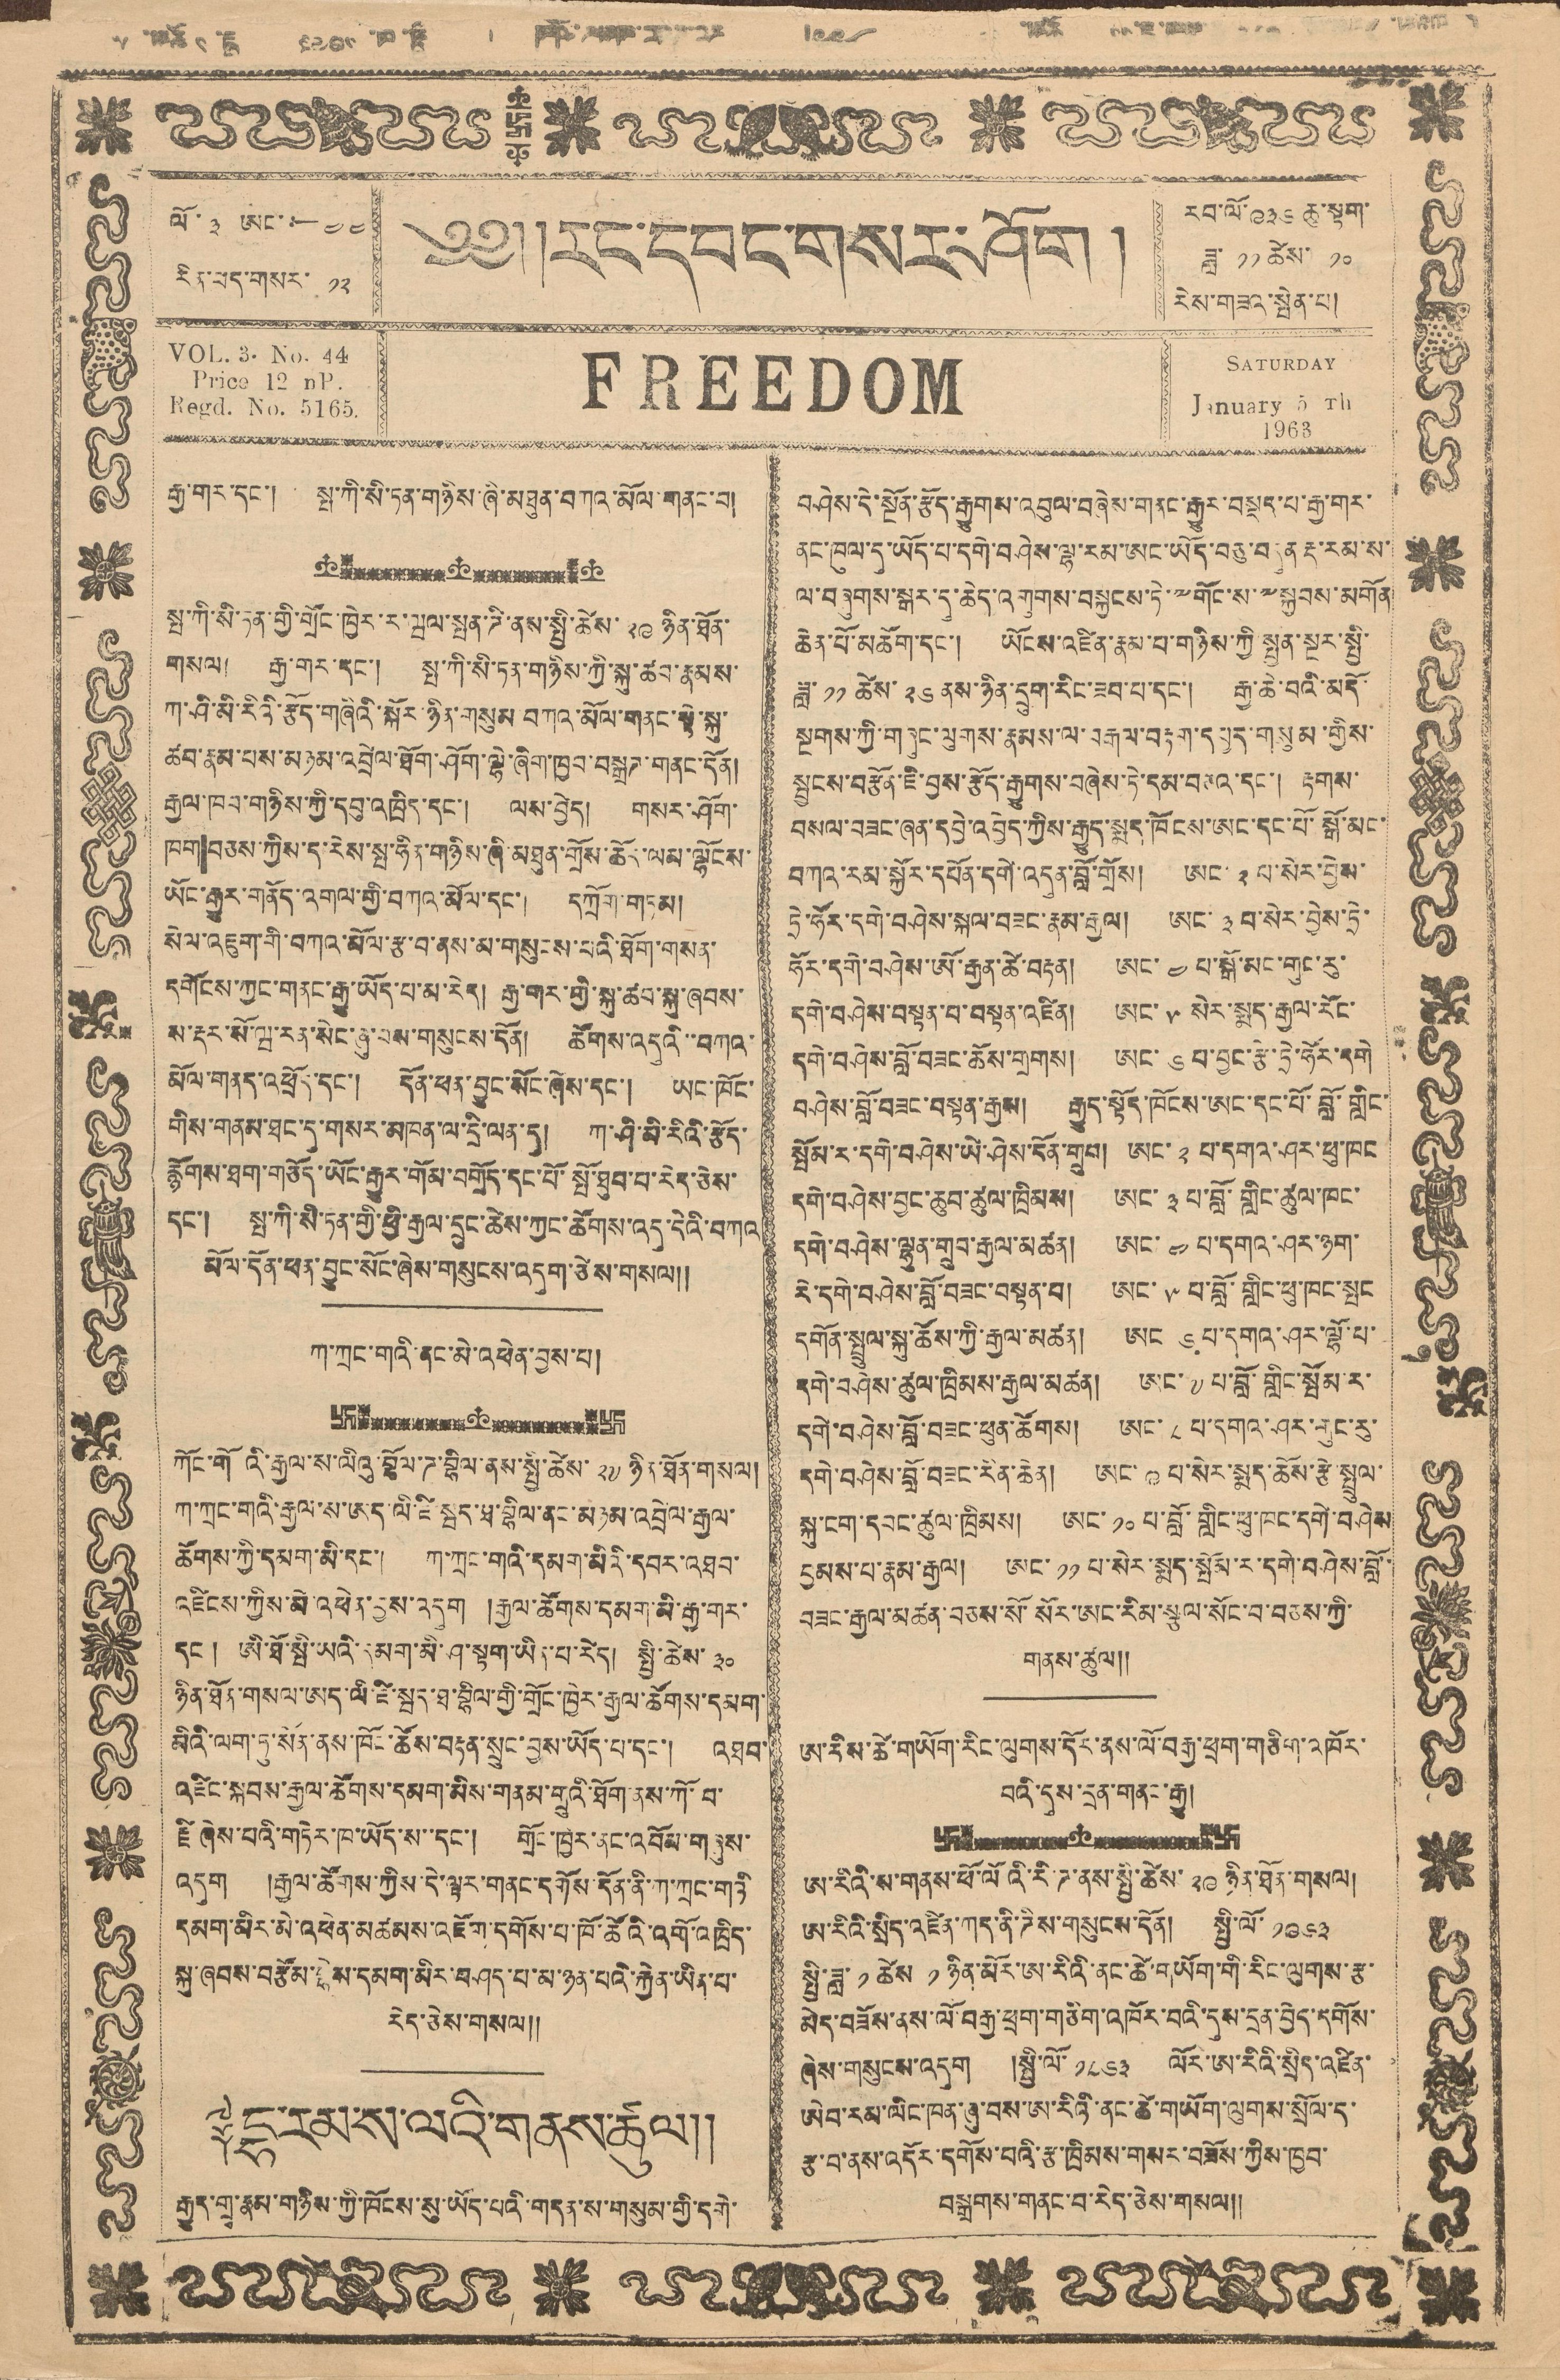རྒྱ་གར་དང་། སྤ་ཀི་སི་ཏན་གཉིས་ཞི་མཐུན་བཀའ་མོལ་གནང་བ།
སྤ་ཀི་སི་ཏན་གྱི་གྲོང་ཁྱེར་ར་ཝལ་སྤན་ཌི་ནས་སྤྱི་ཚེས་ ༢༩ ཉིན་ཐོན་
གསལ། རྒྱ་གར་དང་། སྤ་ཀི་སི་ཏན་གཉིས་ཀྱི་སྐུ་ཚབ་རྣམས་
ཀ་ཤི་མི་རིའི་རྩོད་གཞིའི་སྐོར་ཉིན་གསུམ བཀའ་མོལ་གནང་སྟེ་སྐུ་
ཚབ་རྣམ་པས་མཉམ་འབྲེལ་ཐོག་ཤོག་ལྷེ་ཞིག་ཁྱབ་བསྒྲཊ་གནང་དོན།
རྒྱལ་ཁབ་གཉིས་ཀྱི་དབུ་འཁྲིད་དང་། ལས་བྱེད། གསར་ཤོག་
ཁག་བཅས་ཀྱིས་ད་རེས་སྤ་ཧིན་གཉིས་ཞི་མཐུན་གྲོས་ཆོར་ལམ་ལྷོངས་
ཡོང་རྒྱར་གནོད་འགལ་གྱི་བཀའ་མོལ་དང་། དཀྲོག་གཏམ།
སེལ་འཇུག་གི་བཀའ་མོལ་རྩ་བ་ནས་མ་གསུངས་པའི་ཐོན་གསན་
དགོངས་ཀྱང་གནང་རྒྱུ་ཡོད་པ་མ་རེད། རྒྱ་གར་གྱི་སྐུ་ཚབ་སྐུ་ཞབས་
ས་རྡར་སོ་ཝ་རན་སེང་ཞུ་བས་གསུངས་དོན། ཚོགས་འདུའི་་བཀའ་
མོལ་གནད་འཕྲོད་དང་། དོན་ཕན་བྱུང་སོང་ཞེས་དང་། ཡང་ཁོང་
གིས་གནམ་ཐང་དུ་གསར་མཁན་ལ་དྲི་ལན་དུ། ཀ་ཤི་མི་རིའི་རྩོད་
རྙོགས་ཐག་གཅོད་ཡོང་རྒྱུར་གོམ་བགྲོད་དང་པོ་སྤོ་ཐུབ་པ་རེད་ཅེས་
དང་། སྤ་ཀི་སི་ཏན་གྱི་ཕྱི་རྒྱལ་དྲུང་ཆེས་ཀྱང་ཚོགས་འདུ་དེའི་བཀའ
མོལ་དོན་ཕན་བྱུང་སོང་ཞེས་གསུངས་འདུག་ཅེས་གསལ།།
ཀ་ཀྲང་གའི་ནང་མེ་འཕེན་བྱས་པ།
ཀོང་གོའི་རྒྱལ་ས་ལིའུ་བྷོལ་ཌ་བྷིལ་ནས་སྤྱི་ཚེས་ ༢༧ ཉིན་ཐོན་གསལ།
ཀ་ཀྲང་གའི་རྒྱལ་ས་ཨད་ལི་ཛི་སྦད་ཐ་བྷིལ་ནང་མཉམ་འབྲེལ་རྒྱལ་
ཚོགས་ཀྱི་དམག་མི་དང་། ཀ་ཀྲང་གའི་དམག་མིའི་དབར་འཐབ་
འཛིངས་ཀྱིས་མི་འཕེན་བྱས་འདུག །རྒྱལ་ཚོགས་དམག་ནི་རྒྱ་གར་
དང་། ཨི་ཐོ་སྤི་ཡའི་དམག་མི་ཤ་སྟག་ཏིན་པ་རེད། སྤྱི་ཚེས་ ༣༠
ཉིན་ཐོན་གསལ་ཨད་ལི་ཛི་སྦད་ཐ་བྷིལ་གྱི་གྲོང་ཁྱེར་རྒྱལ་ཚོགས་དམག་
མིའི་ལག་ཏུ་སོན་ནས་ཁོང་ཚོས་བརྟན་སྲུང་བྱས་ཡོད་པ་དང་། འཐབ་
འཛིང་སྐབས་རྒྱལ་ཚོགས་དམག་མིས་གནམ་གྲུའི་ཐོན་ནས་ཀོ་བ་
རྗི ཞེས་པའི་གཏེར་ཁ་ཡོད་ས་་དང་། གྲོང་ཁྱེར་ནང་འབོམ་གཞུས་
འདུག །རྒྱལ་ཚོགས་ཀྱིས་དེ་ལྟར་གནང་དགོས་དོན་ནི་ཀ་ཀྲང་གའི
དམག་མིར་མེ་འཕེན་མཚམས་འཇོག་དགོས་པ་ཁོ་ཚོའི་འགོ་འཁྲིད་
སྐུ་ཞབས་བརྩོམ་བྷེས་དམག་མིར་བཤད་པ་མ་ཉན་པའི་རྐྱེན་ཡིན་པ་
རེད་ཅེས་གསལ།།
༈དྷ་རམ་ས་ལའི་གནས་ཚུལ།།
རྒྱུད་གྲྭ་རྣམ་གཉིས་ཀྱི་ཁོངས་སུ་ཡོད་པའི་གདན་ས་གསུམ་གྱི་དགེ་
བཤེས་དེ་སྔོན་རྩོད་རྒྱུགས་འབུལ་བཞེས་གནང་རྒྱུར་བསྡད་པ་རྒྱ་གར་
ནང་ཁུལ་དུ་ཡོད་པ་དགེ་བཤེས་ལྷ་རམ་ཨང་ཡོད་བཅུ་བདུན་རྡ་རམ་ས་
ལ་བཞུགས་སྒར་དུ་ཆེད་འགུགས་བསྐྱངས་ཏེ་༸གོང་ས་༸སྐྱབས་མགོན
ཆེན་པོ་མཆོག་དང་། ཡོངས་འཛིན་རྣམ་པ་གཉིས་ཀྱི་སྤྱན་སྔར་སྤྱི་
ཟླ་ ༡༡ ཚེས་ ༢༦ ནས་ཉིན་དྲུག་རིང་ཟབ་པ་དང་། རྒྱ་ཆེ་བའི་མདོ་
སྔགས་ཀྱི་གཞུང་ལུགས་རྣམས་ལ་བརྒལ་བརྟག་དཔྱད་གསུམ་གྱིས་
སྦྱངས་བརྩོན་ཇི་བྱས་རྩོད་རྒྱུགས་བཞེས་ཏེ་དམ་བཅའ་དང་། རྟགས་
བསལ་བཟང་ཞན་དབྱེ་འབྱེད་ཀྱིས་རྒྱུད་སྨད་ཁོངས་ཨང་དང་པོ་སྒོ་མང་
བཀའ་རམ་སྐྱོར་དཔོན་དགེ་འདུན་བློ་གྲོས། ཨང་ ༢ པ་སེར་བྱེས་
ཏྲེ་ཧོར་དགེ་བཤེས་སྐལ་བཟང་རྣམ་རྒྱལ། ཨང་ ༣ བ་སེར་བྱེས་ཏྲེ་
ཧོར་དགེ་བཤེས་ཨོ་རྒྱན་ཚེ་བརྟན། ཨང་ ༤ པ་སྒོ་མང་གུང་རུ་
དགེ་བཤེས་བསྟན་བ་བསྟན་འཛིན། ཨང་ ༥ སེར་སྨད་རྒྱལ་རོང་
དགེ་བཤེས་བློ་བཟང་ཆོས་གྲགས། ཨང་ ༦ པ་བྱང་རྩེ་ཏྲེ་ཧོར་དགེ
བཤེས་བློ་བཟང་བསྟན་རྒྱས། རྒྱུད་སྟོད་ཁོངས་ཨང་དང་པོ་བློ་གླིང་
སྤོམ་ར་དགེ་བཤེས་ཡེ་ཤེས་དོན་གྲུབ། ཨང་ ༢ པ་དགའ་ཤར་ཕུ་ཁང
དགེ་བཤེས་བྱང་ཆུབ་ཚུལ་ཁྲིམས། ཨང་ ༣ པ་བློ་གླིང་ཚུལ་ཁང་
དེག་བཤེས་ལྷུན་གྲུབ་རྒྱལ་མཚན། ཨང་ ༤ པ་དགའ་ཤར་ཉག་
རེ་དགེ་བཤེས་བློ་བཟང་བསྟན་བ། ཨང་ ༥ པ་བློ་གླིང་ཕུ་ཁང་སྤང
དགོན་སྤྲུལ་སྐུ་ཆོས་ཀྱི་རྒྱལ་མཚན། ཨང་ ༦ པ་དགའ་ཤར་ལྷོ་པ་
དགེ་བཤེས་ཚུལ་ཁྲིམས་རྒྱལ་མཚན། ཨང་ ༧ པ་བློ་གླིང་སྤོམ་ར་
དགེ་བཤེས་བློ་བཟང་ཕུན་ཚོགས། ཨང་ ༨ པ་དགའ་ཤར་གུང་རུ་
དགེ་བཤེས་བློ་བཟང་རིན་ཆེན། ཨང་ ༩ པ་སེར་སྨད་ཆོས་རྩེ་སྤྲུལ་
སྐུ་ངག་དབང་ཚུལ་ཁྲིམས། ཨང་ ༡༠ པ་བློ་གླིང་ཕུ་ཁང་དགེ་བཤེས
བྱམས་པ་རྣམ་རྒྱལ། ཨང་ ༡༡ པ་སེང་སྨད་སྤོམ་ར་དགེ་བཤེས་བློ་་
བཟང་རྒྱལ་མཚན་བཅས་སོ་སོར་ཨང་རིམ་སྩལ་སོང་བ་བཅས་ཀྱི་
གནས་ཚུལ།།
ཨ་རིས་ཚེ་གཡོག་རིང་ལུགས་དོར་ནས་ལོ་བརྒྱ་ཕྲག་གཅིག་འཁོར་
བའི་དུས་དྲན་གནང་རྒྱུ།
ཨ་རིའི་ས་གནས་ཕོ་ལོའི་རི་ཌ་ནས་སྤྱི་ཚེས་ ༢༩ ཉིན་ཐོན་གསལ།
ཨ་རིའི་སྲིད་འཛིན་ཀད་ནི་ཌིས་གསུངས་དོན། སྤྱི་ལོ ༡༩༦༣
སྤྱི་ཟླ་ ༡ ཚེས་ ༡ ཉིན་མོར་ཨ་རིའི་ནང་ཚེ་གཡོག་གི་རིང་ལུགས་རྩ་
མེད་བཟོས་ནས་ལོ་བརྒྱ་ཕྲག་གཅིག་འཁོར་བའི་དུས་དྲན་བྱེད་དགོས་
ཞེས་གསུངས་འདུག །སྤྱི་ལོ་ ༡༨༦༣ ལོར་ཨ་རིའི་སྲིད་འཛིན་
ཨེབ་རམ་ལིང་ཁན་ཞུ་བས་ཨ་རིའི་ནང་ཚེ་གཡོག་ལུགས་སྲོལ་ད་
རྩ་བ་ནས་འདོར་དགོས་པའི་རྩ་ཁྲིམས་གསར་བཟོས་ཀྱིས་ཁྱབ་
བསྒྲགས་གནང་བ་རེད་ཅེས་གསལ།།
